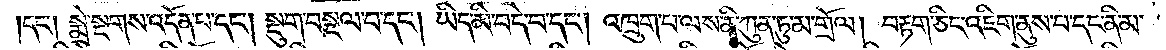དང༌། སྨྲེ་སྔགས་འདོན་པ་དང༌། སྡུག་བསྔལ་བ་དང༌། ཡིད་མི་བདེ་བ་དང༌། འཁྲུག་པ་ལས་ནི་ཀུན་ཏུ་མ་གྲོལ། བརྟག་ཅིང་འཇིག་ནུས་པ་དང་ནི་མ་
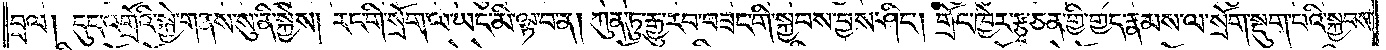བྲལ། དུད་འགྲོའི་སྐྱེ་གནས་སུ་ནི་སྐྱེས། རང་གི་སྲོག་ལ་ཡང་མི་ལྟ་བ་ན། ཀུན་ཏུ་རྒྱུ་རབ་བཟང་གི་སྐྱབས་བྱས་ཤིང༌། གྲོང་ཁྱེར་རྩྭ་ཅན་གྱི་གྱད་རྣམས་ལ་སྲོག་སྡུག་པའི་སྐྱབས་
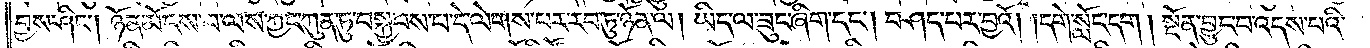བྱས་ཤིང༌། ཉོན་མོངས་པ་ལས་ཀྱང་ཀུན་ཏུ་བསྐྱབས་པ་དེ་ལེགས་པར་རབ་ཏུ་ཉོན་ལ། ཡིད་ལ་ཟུང་ཞིག་དང༌། བཤད་པར་བྱའོ། །དགེ་སློང་དག །སྔོན་བྱུང་བ་འདས་པའི་
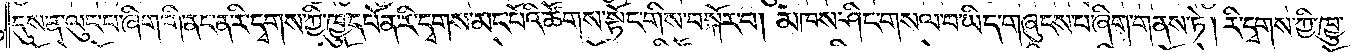དུས་ན་ལུང་པ་ཞིག་གི་ནང་ན་རི་དྭགས་ཀྱི་ཁྱུ་དཔོན་རི་དྭགས་མང་པོའི་ཚོགས་སྟོང་གིས་བསྐོར་བ། མཁས་ཤིང་གསལ་བ་ཡིད་གཞུངས་པ་ཞིག་གནས་ཏེ། རི་དྭགས་ཀྱི་ཁྱུ་
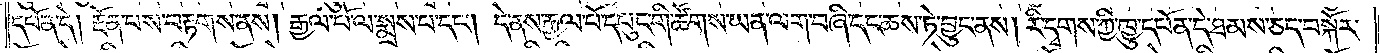དཔོན་དེ། རྔོན་པས་བརྟགས་ནས། རྒྱལ་པོ་ལ་སྨྲས་པ་དང༌། དེ་ནས་རྒྱལ་པོ་དཔུང་གི་ཚོགས་ཡན་ལག་བཞི་དང་ཆས་ཏེ་བྱུང་ནས། རི་དྭགས་ཀྱི་ཁྱུ་དཔོན་དེ་ཐམས་ཅད་བསྐོར་
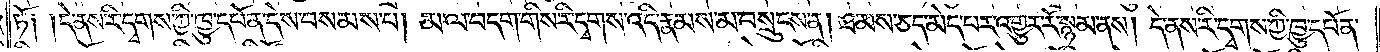ཏོ༑ །དེ་ནས་རི་དྭགས་ཀྱི་ཁྱུ་དཔོན་དེས་བསམས་པ། མ་ལ་བདག་གིས་རི་དྭགས་འདི་རྣམས་མ་བསྲུངས་ན། ཐམས་ཅད་མེད་པར་འགྱུར་རོ་སྙམ་ནས། དེ་ནས་རི་དྭགས་ཀྱི་ཁྱུ་དཔོན་
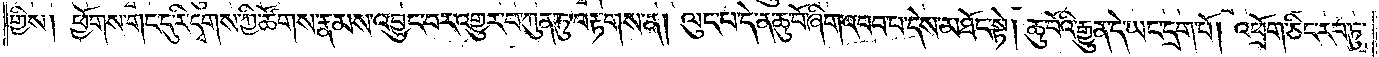གྱིས། ཕྱོགས་གང་དུ་རི་དྭགས་ཀྱི་ཚོགས་རྣམས་འབྱུང་བར་འགྱུར་བ་ཀུན་ཏུ་བརྟགས་ན། ལུང་པ་དེ་ན་ཆུ་བོ་ཞིག་འབབ་པ་དེས་མཐོང་སྟེ། ཆུ་བོའི་རྒྱུན་དེ་ཡང་དྲག་པོ། འཕྲོག་ཅིང་རབ་ཏུ་
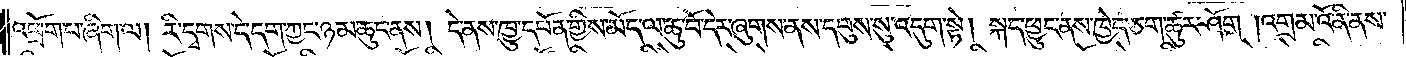འཕྲོག་པ་ཞིག་ལ། རི་དྭགས་དེ་དག་ཀྱང་ཉམ་ཆུང་ནས། དེ་ནས་ཁྱུ་དཔོན་གྱིས་མོད་ལ་ཆུ་བོ་དེར་ཞུགས་ནས་དབུས་སུ་འདུག་སྟེ། སྐད་ཕྱུང་ནས་ཁྱེད་ཅག་ཚུར་ཤོག །འགྲམ་འོ་ནི་ནས་
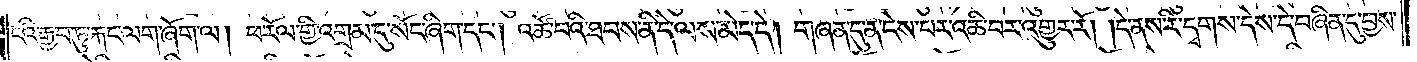ངའི་རྒྱབ་ཏུ་རྐང་ལག་ཞོག་ལ། ཕ་རོལ་གྱི་འགྲམ་དུ་སོང་ཞིག་དང༌། འཚོ་བའི་ཐབས་ནི་དེ་ལས་མེད་དེ། གཞན་དུ་ན་ངེས་པར་འཆི་བར་འགྱུར་རོ། །དེ་ནས་རི་དྭགས་དེས་དེ་བཞིན་དུ་བྱས་
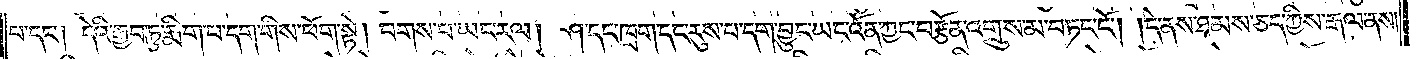པ་དང༌། དེའི་རྒྱབ་ཏུ་རྨིག་པ་དག་གིས་ཕོག་སྟེ། པགས་པ་ཡང་རལ། ཤ་དང་ཁྲག་དང་རུས་པ་དག་བྱུང་ཡང་འོན་ཀྱང་བརྩོན་འགྲུས་མ་བཏང་ངོ༌། །དེ་ནས་ཐམས་ཅད་ཀྱིས་རྒལ་ནས།
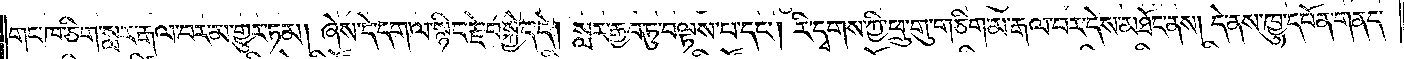གང་ཁ་ཅིག་སླར་རྒལ་བར་མ་གྱུར་ཏམ། ཞེས་དེ་དག་ལ་སྙིང་རྗེ་བསྐྱེད་དེ། སླར་རྒྱབ་ཏུ་བལྟས་པ་དང༌། རི་དྭགས་ཀྱི་ཕྲུ་གུ་གཅིག་མ་རྒལ་བར་དེས་མཐོང་ནས། དེ་ནས་ཁྱུ་དཔོན་གནད་
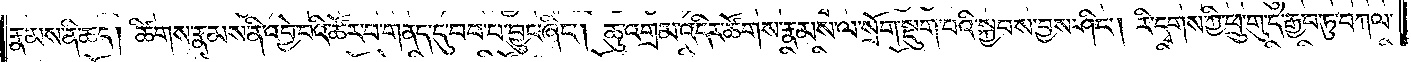རྣམས་ནི་ཆད། ཚིགས་རྣམས་ནི་འབྱེ་བའི་ཚོར་བ་གནད་དུ་བབ་པ་བྱུང་ཞིང༌། ཆུ་འགྲམ་འདིར་ཚོགས་རྣམས་ལ་སྲོག་སྡུག་པའི་སྐྱབས་བྱས་ཤིང༌། རི་དྭགས་ཀྱི་ཕྲུ་གུ་དེ་རྒྱབ་ཏུ་བཀལ་
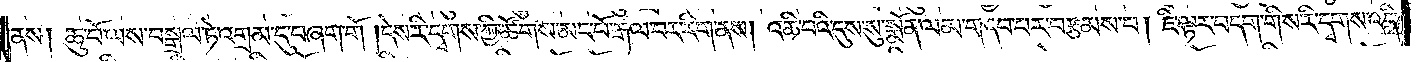ནས། ཆུ་བོ་ལས་བསྒྲལ་ཏེ་འགྲམ་དུ་བཞག་གོ །དེས་རི་དྭགས་ཀྱི་ཚོགས་མང་པོ་རྒལ་བར་རིག་ནས། འཆི་བའི་དུས་སུ་སྨོན་ལམ་གདབ་པར་བརྩམས་པ། ཇི་ལྟར་བདག་གིས་རི་དྭགས་འདི་
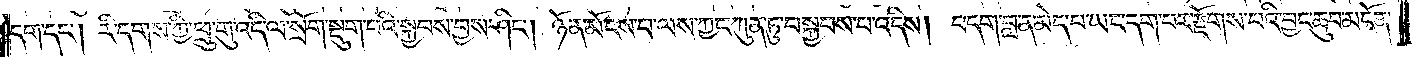དག་དང༌། རི་དགས་ཀྱི་ཕྲུ་གུ་འདི་ལ་སྲོག་སྡུག་པའི་སྐྱབས་བྱས་ཤིང༌། ཉོན་མོངས་པ་ལས་ཀྱང་ཀུན་ཏུ་བསྐྱབས་པ་འདིས། བདག་བླ་ན་མེད་པ་ཡང་དག་པར་རྫོགས་པའི་བྱང་ཆུབ་མངོན་
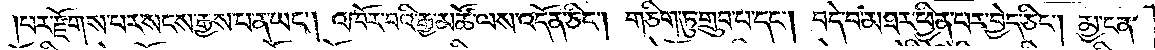པར་རྫོགས་པར་སངས་རྒྱས་པ་ན་ཡང༌། འཁོར་བའི་རྒྱ་མཚོ་ལས་འདོན་ཅིང༌། གཅིག་ཏུ་གྲུབ་པ་དང༌། བདེ་བ་མཐར་ཕྱིན་པར་བྱེད་ཅིང༌། མྱ་ངན་
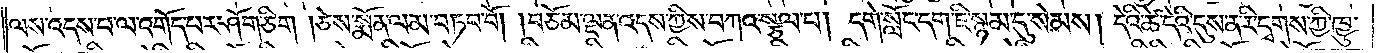ལས་འདས་པ་ལ་འགོད་པར་ཤོག་ཅིག །ཅེས་སྨོན་ལམ་བཏབ་བོ། །བཅོམ་ལྡན་འདས་ཀྱིས་བཀའ་སྩལ་པ། དགེ་སློང་དག་ཇི་སྙམ་དུ་སེམས། དེའི་ཚེ་དེའི་དུས་ན་རི་དྭགས་ཀྱི་ཁྱུ་
